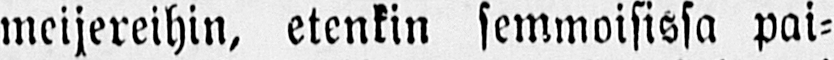meijereihin, etenkin semmoisissa pai-
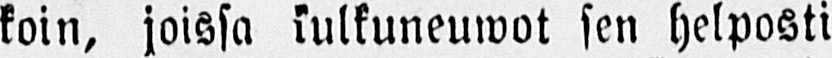koin, joissa kulkuneuwot sen helposti
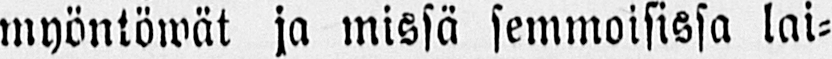myöntäwät ja missä semmoisissa lai-
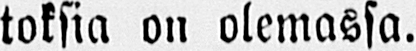toksia on olemassa.
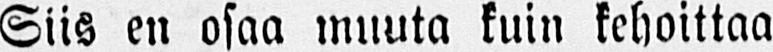Siis en osaa muuta kuin kehoittaa
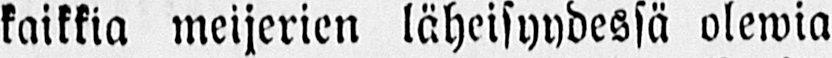kaikkia meijerien läheisyydessä olewia
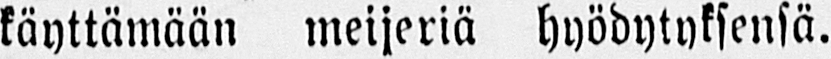käyttämään meijeriä hyödytyksensä.
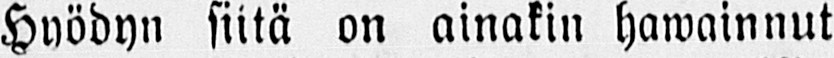Hyödyn siitä on ainakin hawainnut
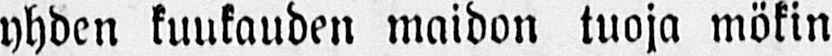yhden kuukauden maidon tuoja mökin
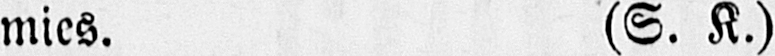mies. (S. K.)
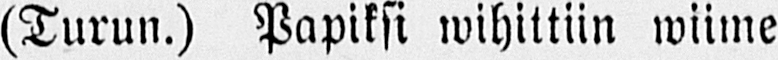(Turun.) Papiksi wihittiin wiime
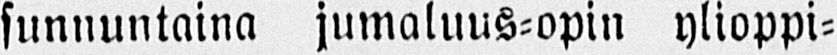sunnuntaina jumaluus-opin ylioppi-
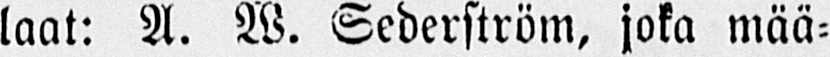laat: A. W. Sederström, joka mää-
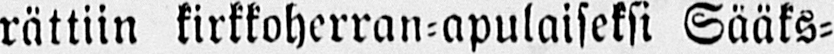rättiin kirkkoherran-apulaiseksi Sääks-
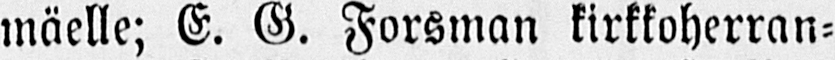mäelle; E. G. Forsman kirkkoherran-
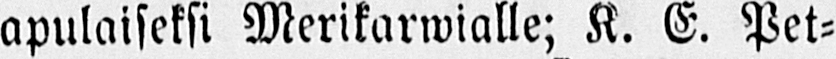apulaiseksi Merikarwialle; K. E. Pet-
